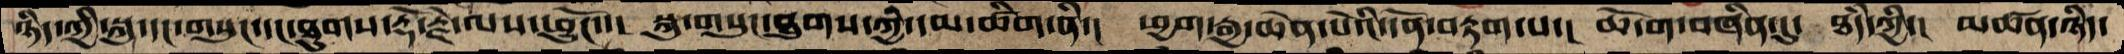ཉིད་ཀྱི་སྐུ་དང་གསུང་དང་ཐུགས་རྡོ་རྗེ་ལས་ཕྱུངོ་་།  སྐུ་གསུང་ཐུགས་ཀྱི་དམ་ཚིག་ནི་།  ཕྱག་རྒྱ་ཆེན་པོའི་དོན་བརྟག་པ་།  ཆོ་ག་བཞིན་དུ་  ཐཾད་ཀྱི་།  མཚན་ཉིད་
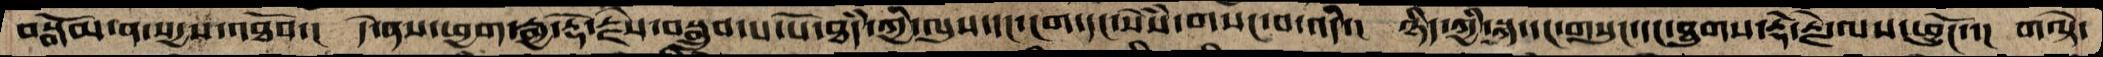བསྒོམ་ན་སདྱས་འཐོབ་།  དེ་ནས་ཕྱག་རྒྱ་རྡོ་རྗེས་བསྒྲུབ་པ་པོ་ཐཾད་ཀྱི་ལུས་དང་ངག་དང་སེཾས་གསང་བ་འདི་།  ཉིད་ཀྱི་སྐུ་དང་གསུང་དང་ཐུགས་རྡོ་རྗེ་ལས་ཕྱུངོ་།  གལྟེ་
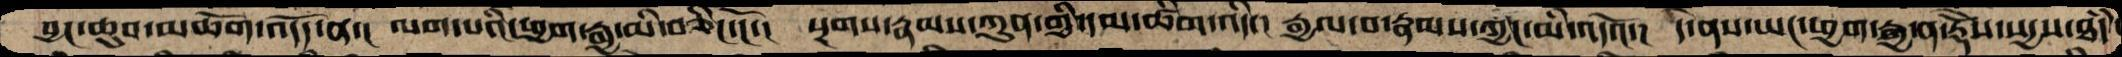བྱང་ཆུབ་མཆོག་འདོད་ན་།  ལག་པའི་ཕྱག་རྒྱ་མི་བཅིང་ངོ་།  སྔགས་རྣམས་ཀུན་གྱི་དམ་ཚིག་འདི་།  རྒྱལ་བ་རྣམས་ཀྱང་མི་འདའོ་།  དེ་ནས་ཡང་ཕྱག་རྒྱ་ན་རྡོེས་སདྱས་ཐཾད་
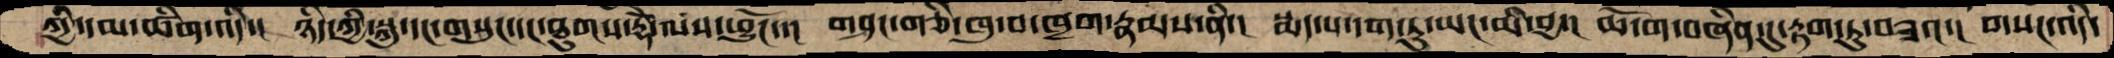ཀྱི་དམ་ཚིག་འདི་།  ཉིད་ཀྱི་སྐུ་དང་གསུང་དང་ཐུགས་རྡོེ་ལས་ཕྱུངོ་་།  གཤང་གཅི་ཁུ་བ་ཁྲག་རྣམས་ནི་།  སྨད་པ་དག་ཏུ་ཡང་མི་བྱ་།  ཆོ་ག་བཞིན་དུ་རྟག་ཏུ་བཟའ་།  གསང་འདི་
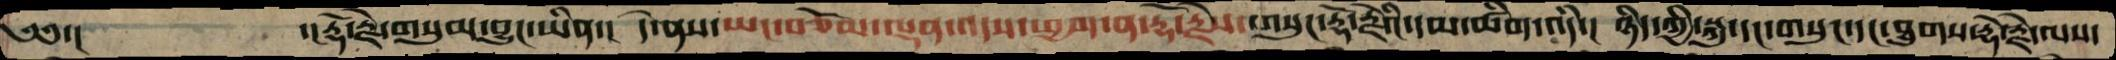༄༅་།    ་།རྡོ་རྗེ་གསུམ་བྱུང་ཡིན་།  དེ་ནས་ཡང་བཅོམ་ལྡན་འདས་ཕྱག་ན་རྡོ་རྗེས་གསུང་རྡོ་རྗེའི་དམ་ཚིག་འདི་།  ཉིད་ཀྱི་སྐུ་དང་གསུང་དང་ཐུགས་རྡོ་རྗེ་ལས་
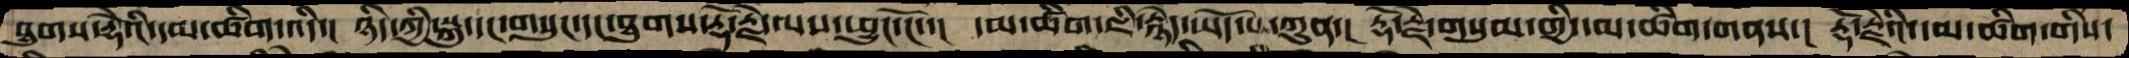ཐུགས་རྡོེའི་དམ་ཚིག་འདི་།  ཉིད་ཀྱི་སྐུ་དང་གསུང་དང་ཐུགས་རྡོ་རྗེ་ལས་ཕྱུང་ངོ་་།  དམ་ཚིག་ཇི་རྙེད་ཡོད་པ་ཀུན་།  རྡོ་རྗེ་གསུམ་གྱི་དམ་ཚིག་གནས་།  རྡོ་རྗེའི་དམ་ཚིག་གིས་
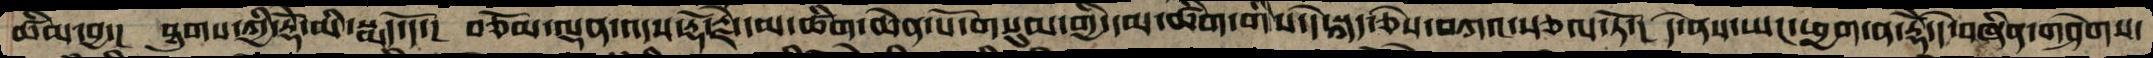ཚིམ་བྱ་།  ཐུགས་ཀྱི་རྡོེ་མི་སྨད་དོ་།  བཅོམ་ལྡན་འདས་རྡོ་རྗེ་དམ་ཚིག་ཆེན་པོ་གསུམ་གྱི་དམ་ཚིག་གིས་དེ་སྐད་ཅེས་བཀའ་སྩལ་ཏོ་།  དེ་ནས་ཡང་ཕྱག་ན་རྡོེ་དེ་བཞིན་གཤེགས་
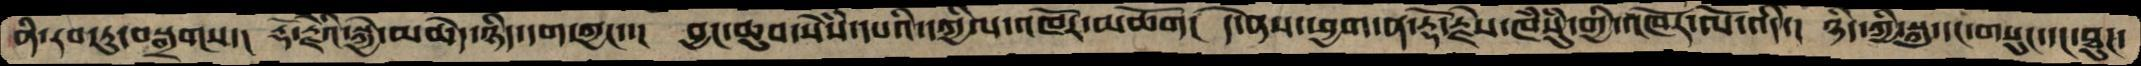ནི་རབ་ཏུ་བསྒྲགས་།  རྡོ་རྗེའི་སྐྱེ་མཆེད་ཉིད་དག་ཀྱང་་།  བྱང་ཆུབ་སེསཾ་དཔའི་དཀྱིལ་འཁོར་མཆོག།  དེ་ནས་ཕྱག་ན་རྡོ་རྗེས་ཁཾསུཾ་གྱི་འཁོར་ལོ་འདི་།  ཉིད་ཀྱི་སྐུ་དང་གསུང་དང་ཐུཌ་
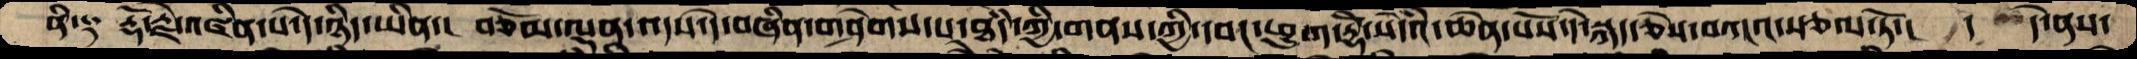ན༑  རྡོ་རྗེ་འཛིན་པ་དེ་ཉིད་ཡིན་།  བཅོམ་ལྡན་འདས་དེ་བཞིན་གཤེགས་པ་ཐཾད་ཀྱི་གནས་ཀྱི་དབང་ཕྱུག་རྡོེ་སེདཾའ་ཆེན་པོས་དེ་སྐད་ཅེས་བཀའ་སྩལ་ཏོ་།  ད  དེ་ནས་
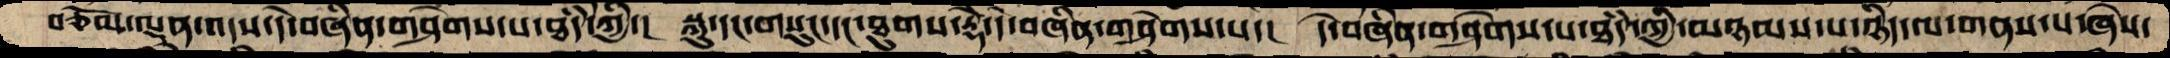བཅོམ་ལྡན་འདས་དེ་བཞིན་གཤེགས་པ་ཐཾད་ཀྱི་།  སྐུ་དང་གསུང་དང་ཐུགས་རྡོེ་དེ་བཞིན་གཤེགས་པ་།  དེ་བཞིན་གཤེགས་པ་ཐཾད་ཀྱི་མཉམས་པ་ཉིད་ལ་གནས་པ་ཞེས་
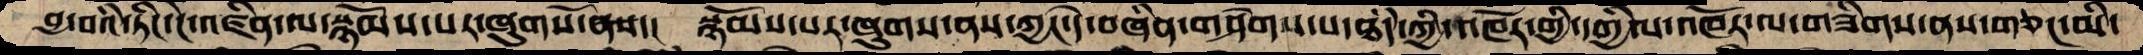བྱ་བའི་ཏིང་ངེ་འཛིན་ལ་སྙོམས་པར་ཞུགསོ་ནས་།  སྙོམས་པར་ཞུགས་ནས་ཀྱང་དེ་བཞིན་གཤེགས་པ་ཐཾད་ཀྱི་འཁོར་གྱི་དཀྱིལ་འཁོར་ལ་གཟིགས་ནས་གཅང་མི་
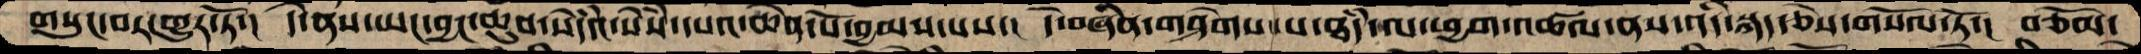གསུང་བར་གྱུར་ཏོ་།  དེ་ནས་ཡང་བྱང་ཆུབ་སེདཾའ་སེཾས་དཔའ་ཆེན་པོ་བྱམས་པས་།  དེ་བཞིན་གཤེགས་པ་ཐཾད་ལ་ཕྱག་འཚལ་ནས་འདི་སྐད་ཅེས་གསོལ་ཏོ་།  བཅོམ་
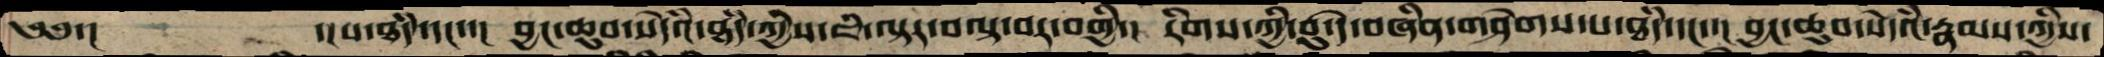༄༅་།    ་།པ་ཐདཾ་དང་་།  བྱང་ཆུབ་སེདཾའ་ཐདཾ་ཀྱིས་ཇི་ལྟར་བལྟ་བར་བགྱི་།  རིགས་ཀྱི་བུ་དེ་བཞིན་གཤེགས་པ་ཐདཾ་དང་་།  བྱང་ཆུབ་སེདཾའ་རྣམས་ཀྱིས་
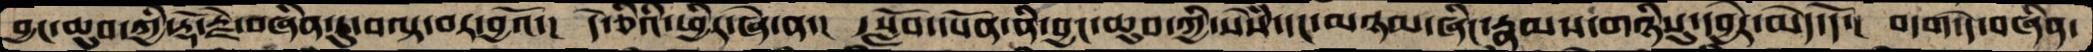བྱང་ཆུབ་ཀྱི་རྡོ་རྗེ་བཞིན་ཏུ་བལྟ་བར་བྱའོ་།  དེ་ཅིའི་ཕྱིར་ཞེ་ན་།  ་སློབ་དཔོན་ནི་བྱང་ཆུབ་ཀྱི་སེཾས་དང་མཉམ་ཞིང་རྣམས་གཉིསུ་དབྱེར་མེད་དོ་།  བདག་དེ་བཞིན་
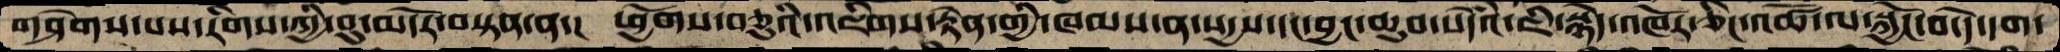གཤེགས་པས་རིགས་ཀྱི་བུ་མདོར་བསྟན་ན་།  ཕྱོགས་བཅུའི་འཇིགས་རྟེན་གྱི་ཁམས་ན་སདྱས་དང་བྱང་ཆུབ་སེདཾའ་ཇི་སྙེད་འཁོར་ཅིང་འཚོ་ལ་སྐྱོང་བ་དེ་དག་
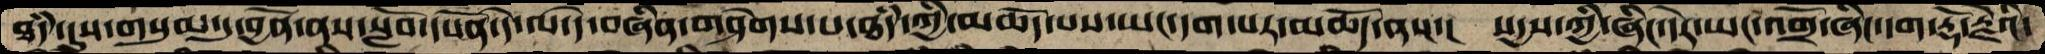ཐདཾ་དུས་གསུམ་དུ་བྱོན་ནས་སློབ་དཔོན་དེ་ལ་དེ་བཞིན་གཤེགས་པ་ཐདཾ་ཀྱི་མཆོད་པས་ཡང་དག་པར་མཆོད་ནས་།  སདྱས་ཀྱི་ཞིང་དེར་ཡང་འགྲོ་ཞིང་དག་རྡོ་རྗེའི་
